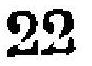22
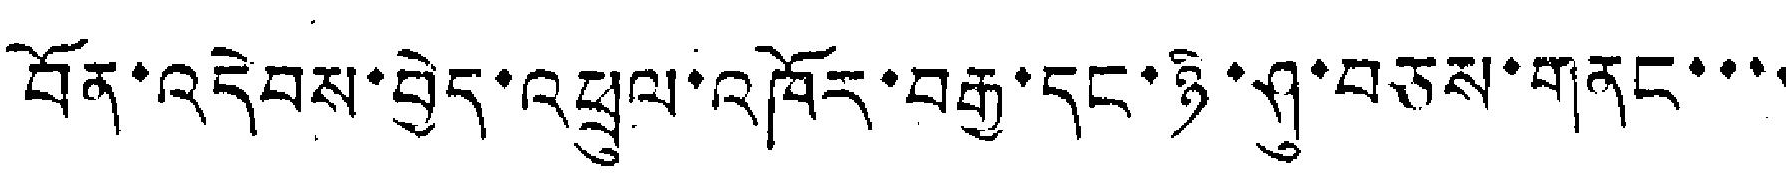བོན་འདེབས་བྱེད་འཕྲུལ་འཁོར་བརྒྱ་དང་ཉི་ཤུ་བཅས་གནང་་་་
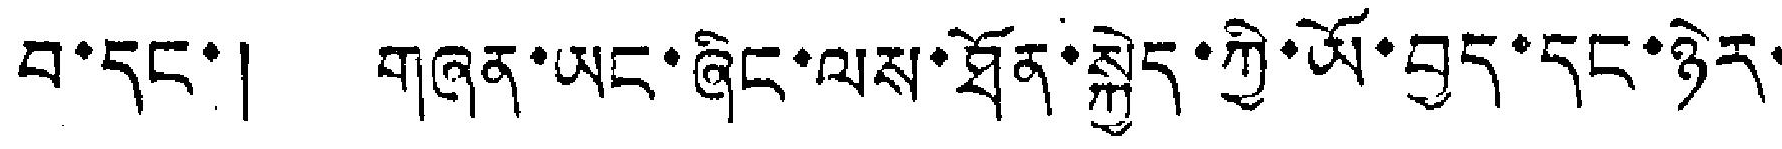བ་དང་། གཞན་ཡང་ཞིང་ལས་ཐོན་སྐྱེད་ཀྱི་ཡོ་བྱད་དང་ཉེར་
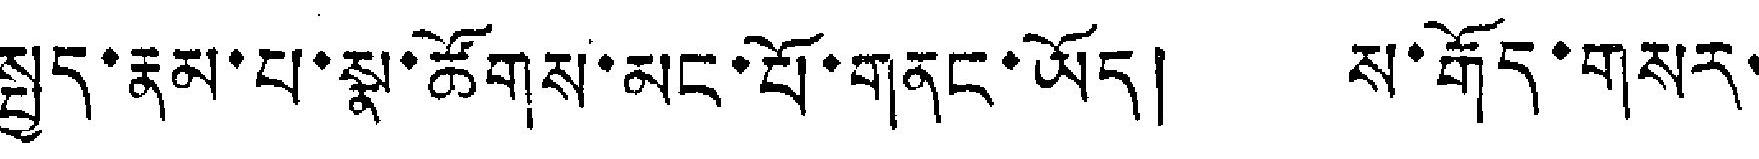སྤྱད་རྣམ་པ་སྣ་ཚོགས་མང་པོ་གནང་ཡོད། ས་རྒོད་གསར་
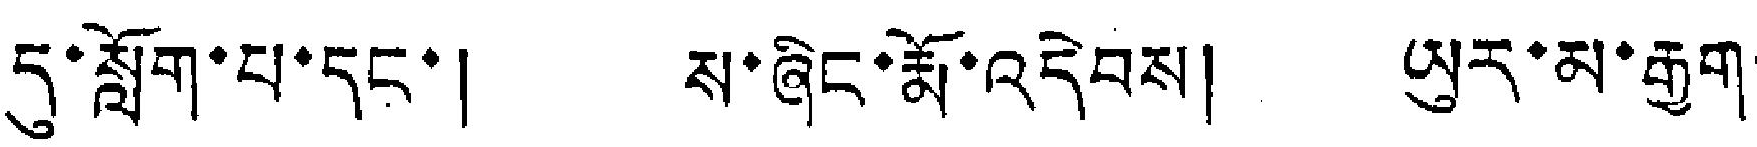དུ་སློག་པ་དང་། ས་ཞིང་རྨོ་འདེབས། ཡུར་མ་རྒྱུག་
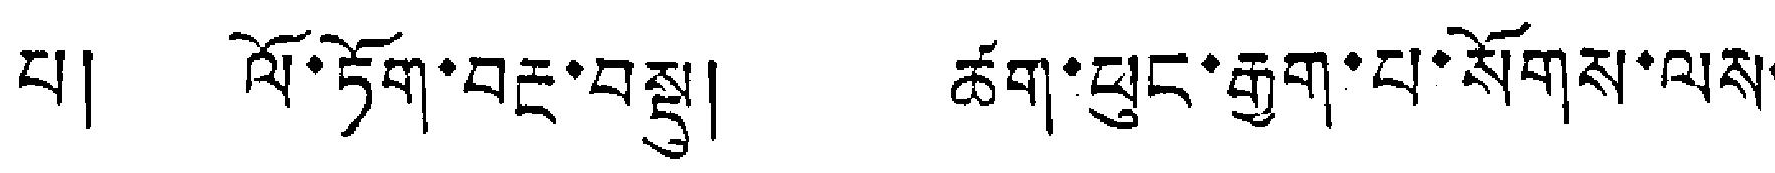པ། ལོ་ཏོག་བརྔ་བསྟུ། ཚག་ཕུང་རྒྱག་པ་སོགས་ལས་
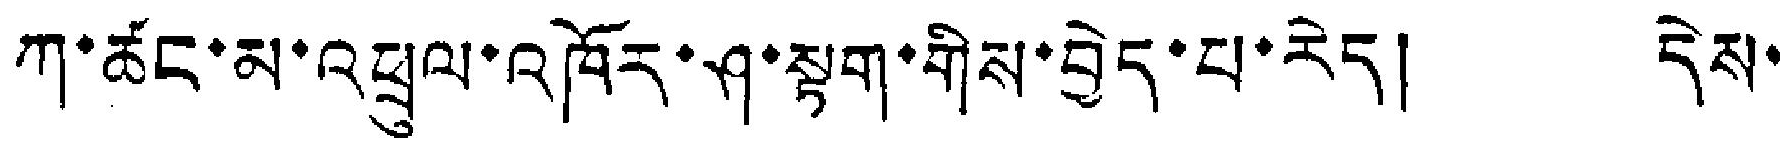ཀ་ཚང་མ་འཕྲུལ་འཁོར་ཤ་སྟག་གིས་བྱེད་པ་རེད། དེས་
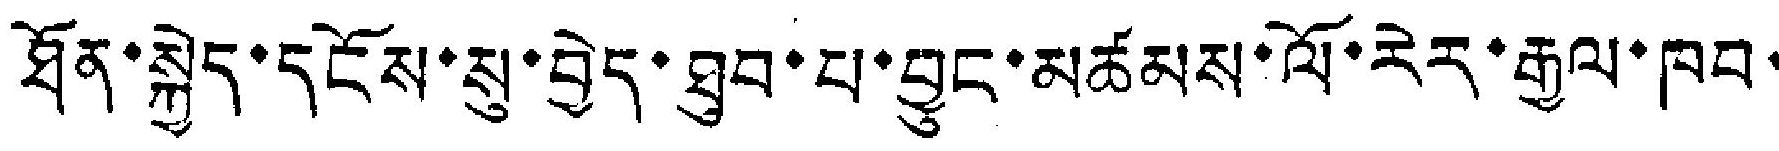ཐོན་སྐྱེད་དངོས་སུ་བྱེད་ཐུབ་པ་བྱུང་མཚམས་ལོ་རེར་རྒྱལ་ཁབ་
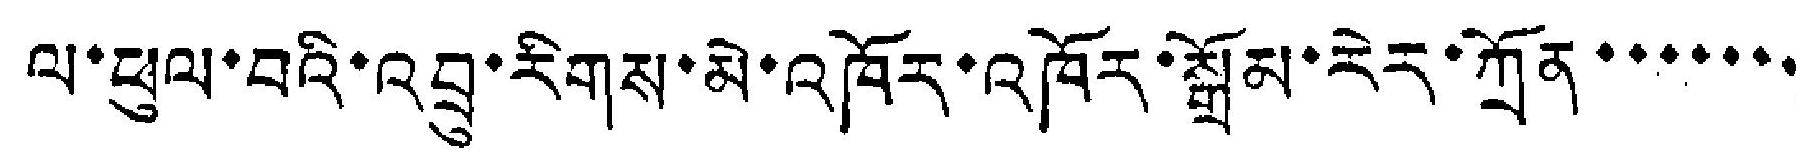ལ་ཕུལ་བའི་འབྲུ་རིགས་མེ་འཁོར་འཁོར་སྒྲོམ་རེར་ཀྲོན་་་་་་་
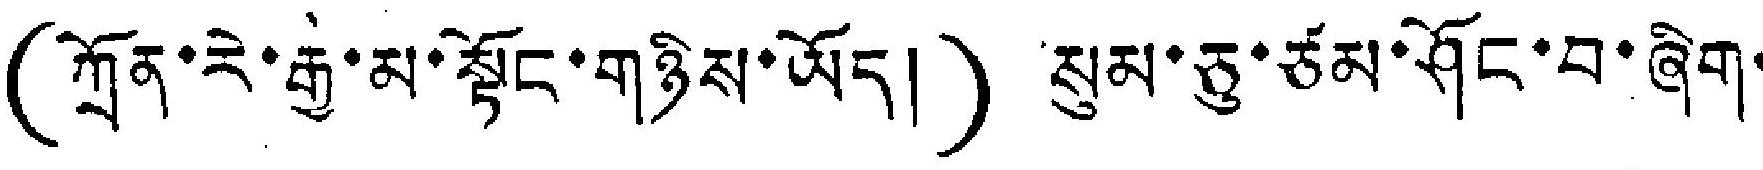(ཀྲོན་རེ་རྒྱ་མ་སྟོང་གཉིས་ཡོད།) སུམ་ཅུ་ཙམ་ཤོང་བ་ཞིག་
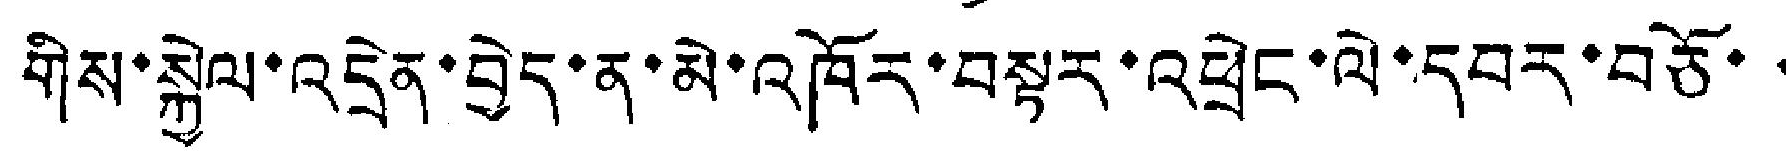གིས་སྐྱེལ་འདྲེན་བྱེད་ན་མེ་འཁོར་བསྟར་འཕྲེང་ལེ་དབར་བཅོ་་
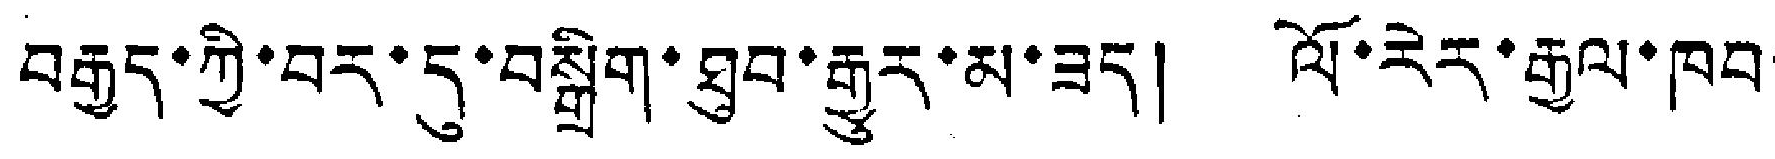བརྒྱད་ཀྱི་བར་དུ་བསྒྲིག་ཐུབ་རྒྱུར་མ་ཟད། ལོ་རེར་རྒྱལ་ཁབ་
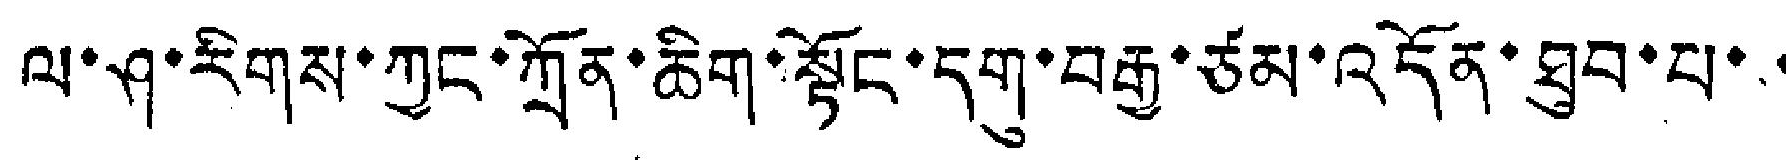ལ་ཤ་རིགས་ཀྱང་ཀྲོན་ཆིག་སྟོང་དགུ་བརྒྱ་ཙམ་འདོན་ཐུབ་པ་་
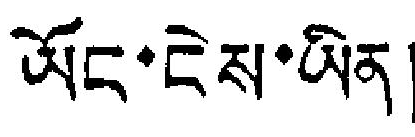ཡོང་ངེས་ཡིན།
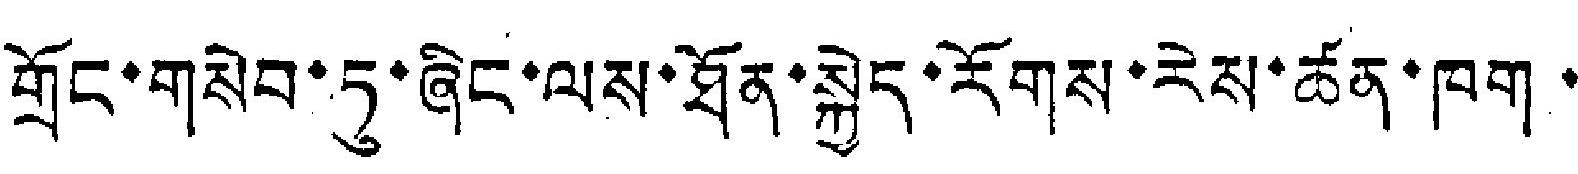གྲོང་གསེབ་ཏུ་ཞིང་ལས་ཐོན་སྐྱེད་རོགས་རེས་ཚན་ཁག་
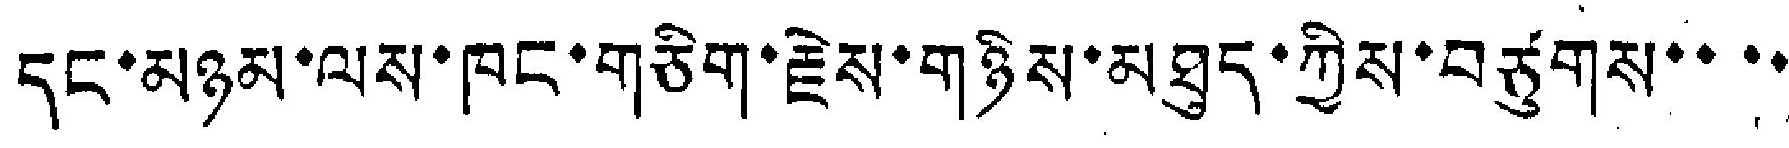དང་མཉམ་ལས་ཁང་གཅིག་རྗེས་གཉིས་མཐུད་ཀྱིས་བཙུགས་་་་
